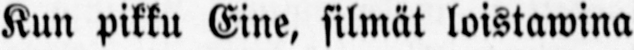Kun pikku Eine, silmät loistawina
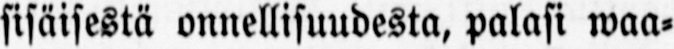sisäisestä onnellisuudesta, palasi waa-
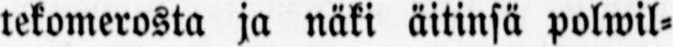tekomerosta ja näki äitinsä polwil-
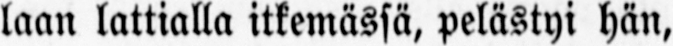laan lattialla itkemässä, pelästyi hän,
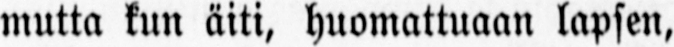mutta kun äiti, huomattuaan lapsen,
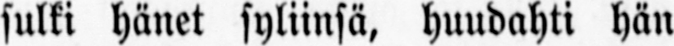sulki hänet syliinsä, huudahti hän
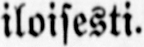iloisesti.
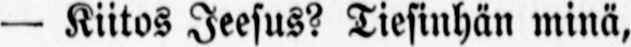— Kiitos Jeesus? Tiesinhän minä,
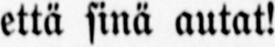että sinä autat!
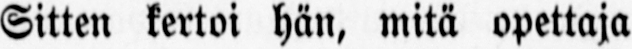Sitten kertoi hän, mitä opettaja
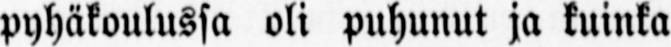pyhäkoulussa oli puhunut ja kuinka
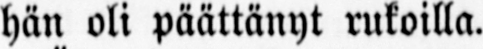hän oli päättänyt rukoilla.
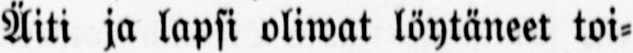Äiti ja lapsi oliwat löytäneet toi-
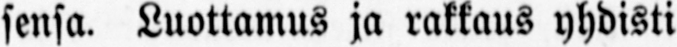sensa. Luottamus ja rakkaus yhdisti
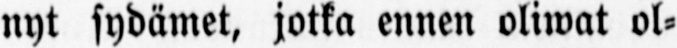nyt sydämet, jotka ennen oliwat ol-
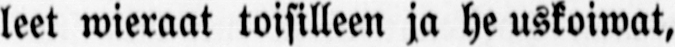leet wieraat toisilleen ja he uskoiwat,
